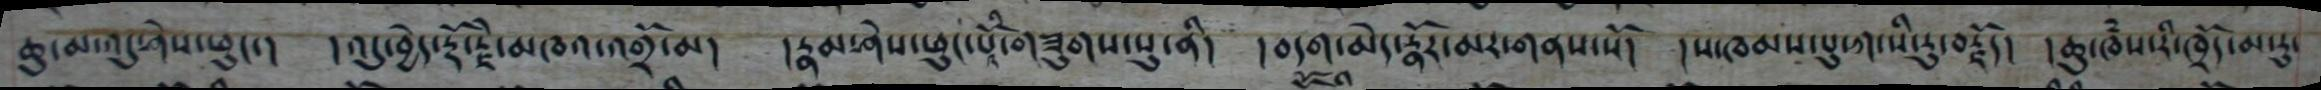ཆུ་མ་འདུ་ཤེས་ཕུང་། །འདུ་བྱེད་རྡོ་རྗེ་མཁའ་འགྲོ་མ། །རྣམ་ཤེས་ཕུང་པོ་གཟུགས་སུ་ནི། །བདག་མེད་རྣོར་མར་གནས་སོ། །ས་ཁམས་པུ་ཀ་སི་རུ་བརྗོད། །ཆུ་ཁཾས་རི་ཁྲོད་མ་རུ་
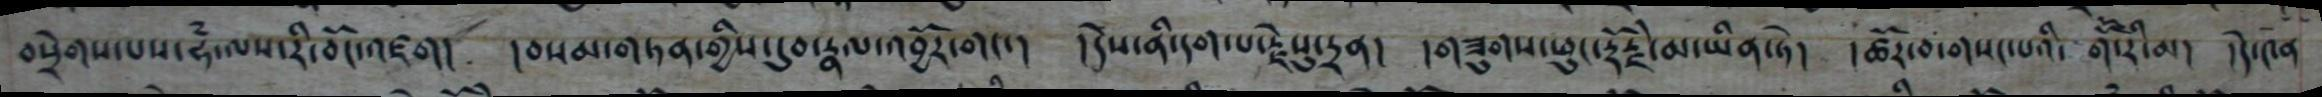བསྲེགས་པས་ཧཾ་ལས་རི་བོང་འཛག། །བསམ་གཏན་གྱིས་དུབ་རྣལ་འབྱོར་གང་། །དེས་ནི་དག་པ་རྗེསུ་དྲན། །གཟུགས་ཕུང་རྡོརྗེ་མ་ཡིན་ཏེ། །ཚོར་བ་གསང་པའི་ གཽ་རི་མ། །དེ་༤ན
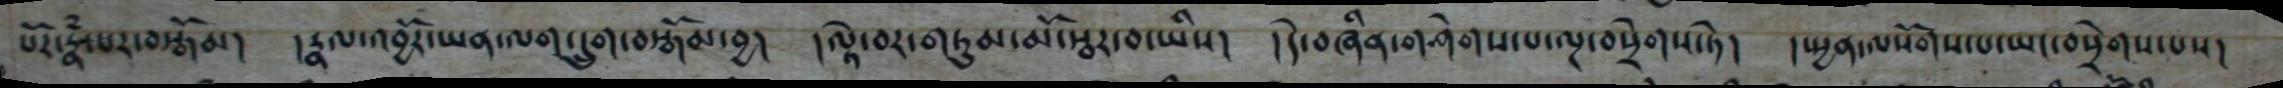པོར་རྣཾ་པར་བསྒོམ། །རྣལ་འབྱོར་ཡན་ལག་དྲུག་བསྒོམ་བྱ། །ལྟེ་བར་གཏུམ་མོ་སྦར་བ་ཡིས། །དེ་བཞིན་གཤེགས་པ་ལྔ་བསྲེགས་ཏེ། །སྤྱན་ལ་སོགས་པ་ཡང་བསྲེགས་པས།
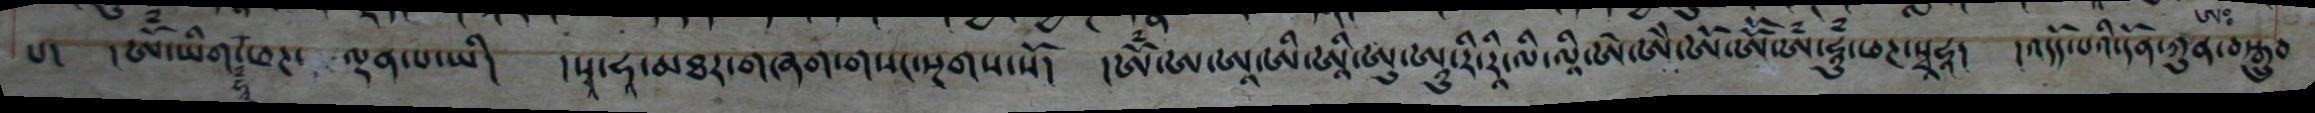པ་    །ཨོཾ་ཡིག་ཧཱུཾ་ཕཌ་ ལྡན་པ་ཡི།    །སྭ་ཧ་མཐར་གཞག་གསང་སྔགས་སོ།    ། ཨོཾ་ཨ་ཨཱ་ཨི་ཨཱི་ཨུ་ཨཱུ་རི་རཱི་ལི་ལཱི་ཨེ་ཨཱེ་ཨོཾ་ཨཱོཾ་ཨཾ་ཧཱུཾ་ཕཌ་སྭཧཱ།  །འདོད་པའི་དོན་ཀུན་བསྒྲུབ་
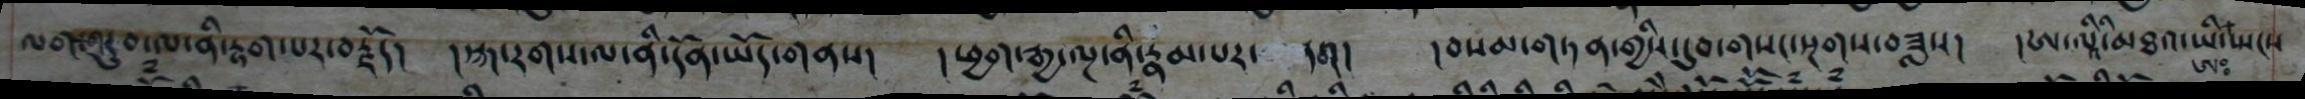ལག་གདུབ་ལ་ནི་རྟག་པར་བརྗོད།    །སྐ་རགས་ལ་ནི་དོན་ཡོད་གནས།  །ཕྱག་རྒྱ་ལྔ་ནི་རྣམ་པར་དབང།   བསམ་གཏན་གྱིས་དུབ་གསང་སྔགས་བཟླས།   ཨ་ལཱི་མཐའ་ཡི་སྤངས
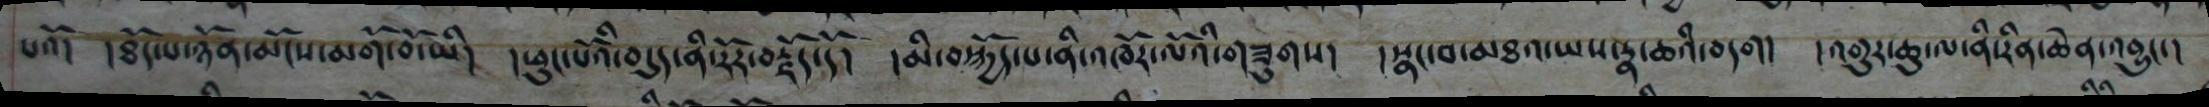པའོ། །ཐོད་པ་ཉོན་མོངས་མགོ་བོ་ཡི། །ཕུང་པོའི་བདུད་ནི་རོར་བརྗོད་དོ། །མོ་བསྐྱོད་པ་ནི་འཁོར་ལོའི་གཟུགས། །སྣང་བ་མཐའ་ཡས་རྣ་ཆའི་བདག། །འགུར་ཆུ་ལ་ནི་རིན་ཆེན་འབྱུང་།
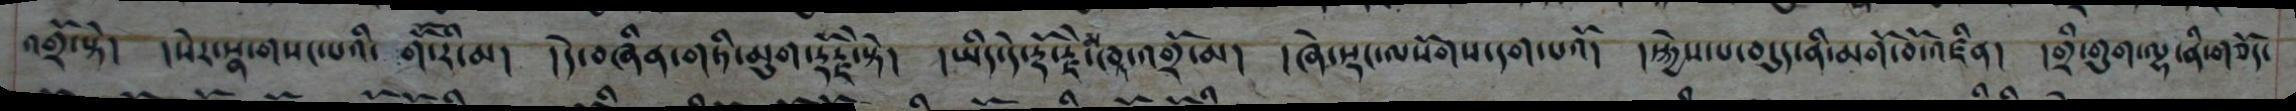འགྲོ་སྟེ། །སེར་སྣ་གསང་པའི་ གཽ་རི་མ། །དེ་བཞིན་གཏི་མུག་རྡོརྗེ་སྟེ། །ཡིད་དེ་རྡོ་རྗེ་ཁཱ་འགྲོ་མ། །ཞེ་སྡང་ལསོགས་དག་པའོ། །སྐྱེས་པ་བདུད་ནི་མགོ་བོ་འཛིན། །གྲི་གུག་ལྷ་ནི་གཅོད་
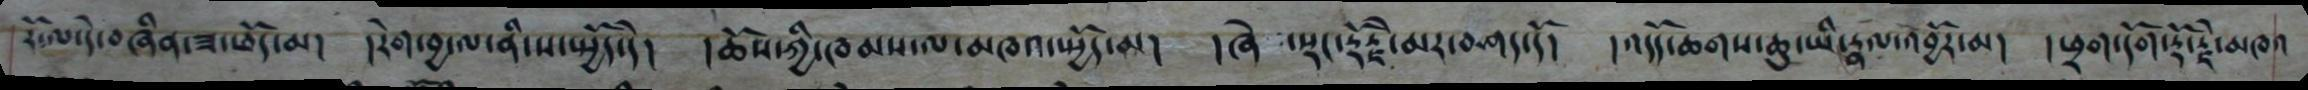རོ་ལ་དེ་བཞིན་ཟ་ཕོད་མ། །རེག་བྱ་ལ་ནི་ས་སྤྱོད་དེ། །ཆོས་ཀྱི་ཁམས་ལ་མཁའ་སྤྱོད་མ། །ཞེ ་སྡང་རྡོརྗེ་མར་བཤད་དོ། །འདོད་ཆགས་ཆུ་ཡི་རྣལ་འབྱོར་མ། །ཕྲག་དོག་རྡོ་རྗེ་མཁའ
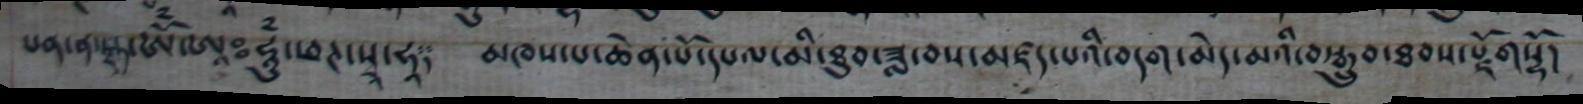པན་ན་ཏྭཏ་ཨོཾ་ཨཱཿ  ཧཱུཾ་ཕཊ་སྭཱ་ཧཱ༑ མཁས་པ་ཆེན་པོ་དཔལ་མི་ཐུབ་ཟླ་བས་མཛད་པའི་བདག་མེད་མའི་བསྒྲུབ་ཐབས་སྫོགསྷོ།
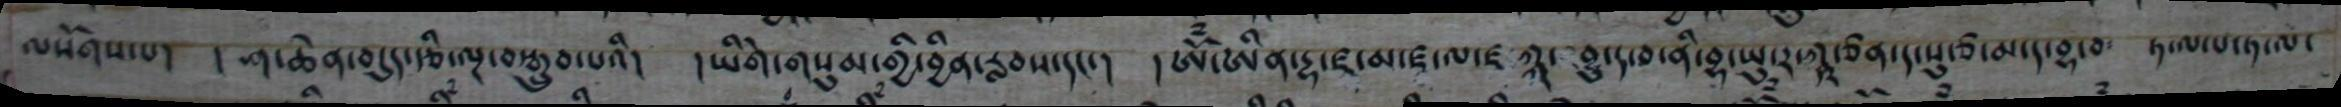ལསོགས་པ། ། ཤ་ཆེན་བདུད་རྩི་ལྔ་བསྒྲུབ་པའི། །ཡིགེ་གསུམ་གྱི་བྱིན་རླབས་དང་། ཨོཾ་ཨིན་དྷ་ཛ་མ་ཛ་ལ་ཛ ཀྐ་ བྷུ་ད་བ་ནི་བྷ་ཡུ་ར་ཀྵ་ཙན་ད་སུ་ཙ་མ་ད་བྷ་བ༴ ཏ་ལ་པ་ཏ་ལ་
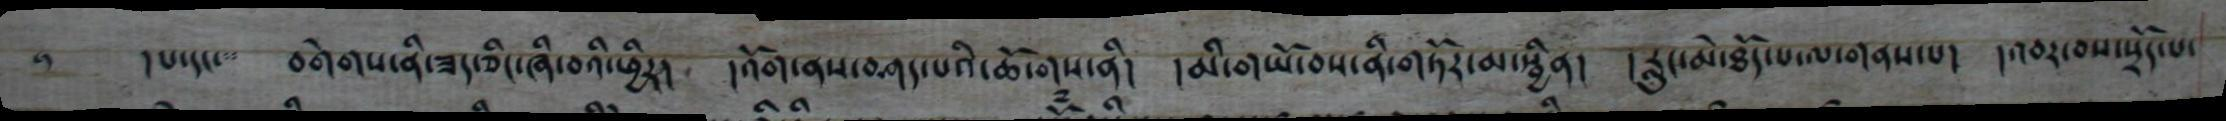།པ་དང་ བགགས་ནི་ཟད་ཅིང་ཞི་བའི་ཕྱིར། །འོག་ནས་བཤད་པའི་ཆོ་གས་ནི། །མི་གཡོ་བས་ནི་གཏོར་མ་སྦྱིན། །རླུང་མེ་ཐོད་པ་ལ་གནས་པ། །འབར་བས་སྲོད་པ་
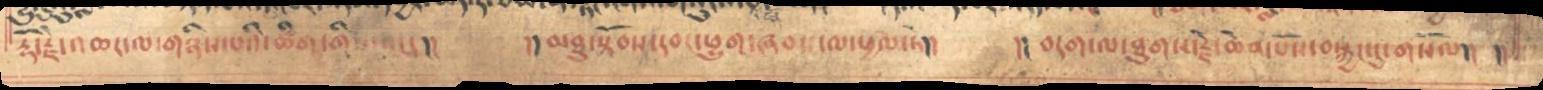རྡོ་རྗེ་འཆང་ལ་གཉིས་པའི་ཚིག་གིས་འངདུ།།   །། མཐུ་སྟོབས་དབང་ཕྱུག་ཞབས་ལ་ཕྱོམ་ཏེ།།   །།  བདག་ལ་ཐུགས་རྗེ་ཆེན་པོས་བསྐྱང་དུ་གསོལ།།   །།
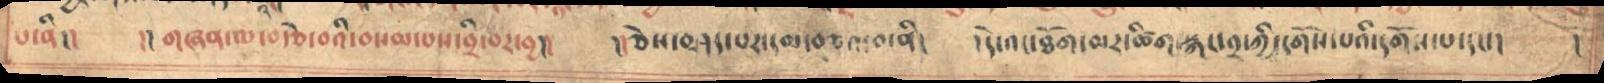པ་ནི།། །།གཞན་ལ་བརྩེ་བའི་བསམ་པས་བྲི་བར་བྱ།། །ཅེས་བཤད་པར་དམ་བཅའ་བ་ནི། །དེ་འང་ཐོག་མར་ཚིག་སྐད་༢་ཀྱི་དགོངས་པའི་དགོངས་པ་དང་། །
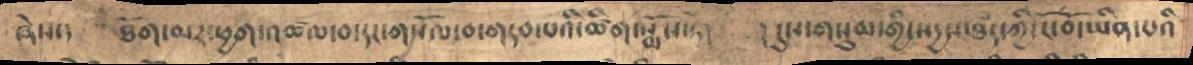ཞེས་༴ ཐོག་མར་ཕྱག་འཚལ་བ་དང་གསོལ་བ་གདབ་པའི་ཚིག་སྨོས་ཏེ། །དུས་གསུམ་གྱི་སདྱས་ཐཾད་ཀྱི་ངོ་བོ་ཡིན་པའི
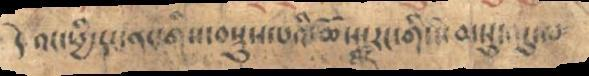དེ   འང་ཕྱི་དང་ནང་གིས་བསྡུས་པའི་ཆོས་རང་གི་སེམསུ་འདུ་ལ་
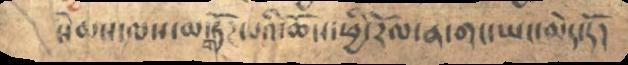སེམས་ལས་མ་གཏོཌ་པའི་ཆོས་ཕྱི་རོལ་ན་གང་ཡང་མེད་དོ།
